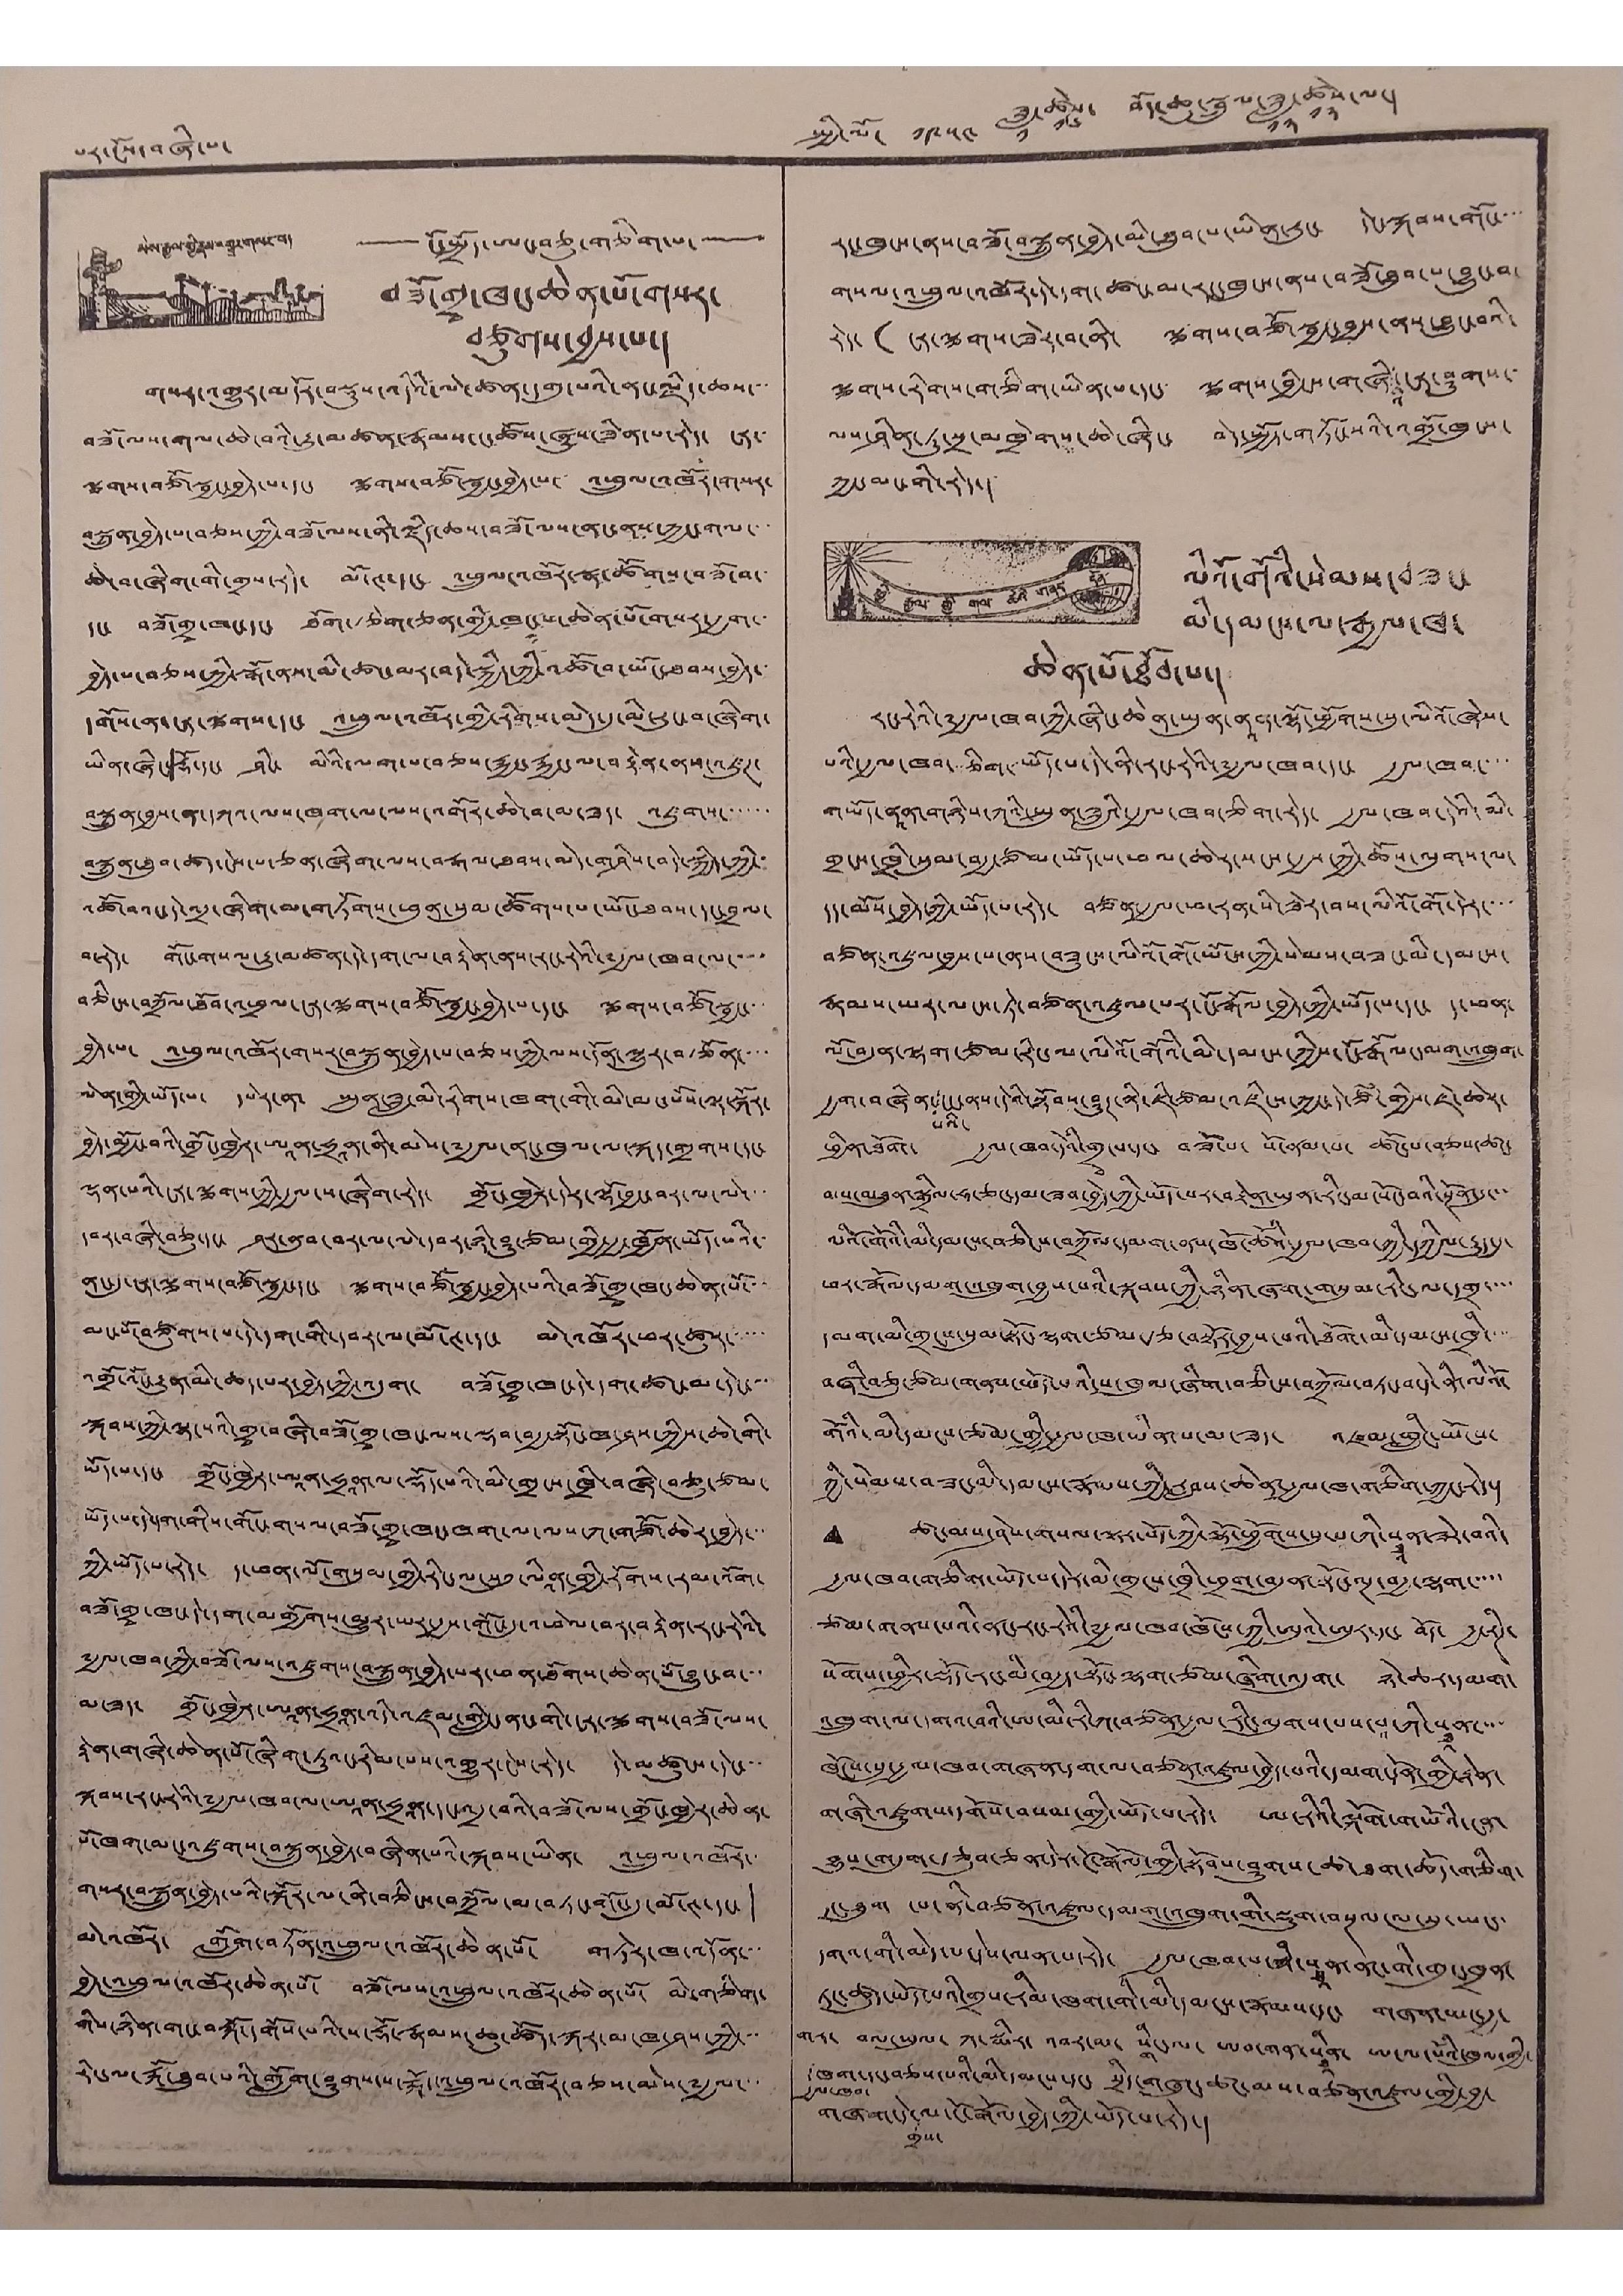པར་ངོས་བཞི་པ་ སྤྱི་ལོ་ ༡༩༥༤ ཟླ་
༡
ཚེས་
༡༢
བོད་ཆུ་སྦྲུལ་ཟླ་
༡༢
ཚེས་
༡༢
ལ།
མེས་རྒྱལ་གྱི་རྣམ་འགྱུར་གསར་པ།
ངོ་སྤྲོད་ཨང་བཅུ་གཅིག་པ་
བཟོ་གྲྭ་ཁང་ཆེན་པོ་གསར་
བཙུགས་བྱས་པ་།
གསར་འགྱུར་མདོར་བསྡུས་འདིའི་ལེ་ཚན་དགུ་པའི་ནང་ལྗིད་ཆས་་་
བཟོ་ལས་གལ་ཆེ་བའི་རྒྱུ་མཚན་རྣམས་ང་ཚོས་ཞུས་ཟིན་པ་རེད་ ངར་་
ལྕགས་བཙོ་སྦྱང་བྱེད་པ་དང་ ལྕགས་བཙོ་སྦྱང་བྱེད་པ་ འཕྲུལ་འཁོར་གསར་
བསྐྲུན་བྱེད་པ་བཅས་ཀྱི་བཟོ་ལས་ནི་ལྗིད་ཆས་བཟོ་ལས་ནང་ནས་ཀྱང་གལ་་་
ཆེ་བ་ཞིག་གི་གྲས་རེད། མོ་ཊ་དང་ འཕྲུལ་འཁོར་སྣ་ཚོགས་བཟོ་བ་་
དང་ བཟོ་གྲྭ་ཁང་དང་ ཐོག་རྩེག་ཅན་གྱི་ཁང་པ་ཆེན་པོ་གསར་རྒྱག་་
བྱེད་པ་བཅས་ཀྱི་སྒོ་ནས་མི་ཚང་མར་བདེ་སྐྱིད་ཀྱི་འཚོ་བ་ཡོང་ཐབས་བྱེད་་
དགོས་ན་ངར་ལྕགས་དང་ འཕྲུལ་འཁོར་གྱི་རིགས་མེད་དུ་མི་རུང་བ་ཞིག་
ཡིན་ཞིངས་རྡོ་དང་ ཤིང་ མིའི་ལག་པ་བཅས་རྐྱང་རྐྱང་ལ་བརྟེན་ནས་འཛུཊ་
བསྐྲུན་བྱས་ན་དཀའ་ལས་ཁག་ལ་ལས་འགོར་ཆེ་བ་མ་ཟད་ འཛུགས་་་་་་
བསྐྲུན་ཐུབ་ཚད་ངེས་པ་ཅན་ཞིག་ལས་བརྒལ་ཐབས་མེད་གཤིས་བདེ་སྐྱིད་ཀྱི་་
འཚོ་བའང་དེ་འདྲ་ཞིག་མ་གཏོགས་ཕུན་སུམ་ཚོགས་པ་ཡོང་ཐབས་དང་བྲལ་
བ་རེད། གོང་གསལ་རྒྱུ་མཚན་དེ་དག་ལ་བརྟེན་ནས་རང་རེའི་༸རྒྱལ་ཁབ་ལ་་་་
བཅིངས་བཀྲོལ་ཐོབ་འཕྲལ་ངར་ལྕགས་བཅོ་སྦྱང་བྱེད་པ་དང་ ལྕགས་བཙོ་སྦྱང་་་
བྱེད་པ་ འཕྲུལ་འཁོར་གསར་བསྐྲུན་བྱེད་པ་བཅས་ཀྱི་ལས་དོན་ལྷུར་བརྩོན་་་་
ལེན་གྱི་ཡོད་པ་ དཔེར་ན་ སྤུན་ཟླ་མི་རིགས་ཁག་གི་མི་མང་པོས་ལྟ་སྐོར་
བྱེད་མྱོང་བའི་གྲོང་ཁྱེར་ཨཱན་ཧྲནཱ་ནི་མེས་༸རྒྱལ་ནང་ཁུལ་ལ་སྐད་གྲགས་དང་
ལྡན་པའི་ངར་ལྕགས་ཀྱི་རྒྱལ་ས་ཞིག་རེད་ གྲོང་ཁྱེར་དེར་ལྷོ་བྱང་བར་ལ་ལེ་་་
དབར་བཞི་བཅུ་དང་ ཤར་ནུབ་བར་ལ་ལེ་དབར་ཉི་ཤུ་ཙམ་གྱི་རྒྱ་ཁྱོན་ཡོད་པའི་་
ནང་དུ་ངར་ལྕགས་བཙོ་སྦྱང་དང་ ལྕགས་བཙོ་སྦྱང་བྱེད་པའི་བཟོ་གྲྭ་ཁང་ཆེན་པོ་་་
མང་པོ་བཙུགས་པ་དེ་དག་གི་དབར་ལ་མོ་ཊ་དང་ མེ་འཁོར་ཕར་ཚུར་་་་་
འགྲོ་འོང་རྒྱུན་མི་ཆད་པར་བྱེད་ཀྱི་འདུག་ བཟོ་གྲྭ་ཁང་དེ་དག་ཚང་མ་དེང་་་
སྐབས་ཀྱི་ལྷ་སའི་གྲྭ་བཞི་བཟོ་གྲྭ་ཁང་ལས་ལྡབ་བརྒྱ་སྟོང་ཁ་ཤས་ཀྱིས་ཆེ་གི་
ཡོད་པ་དང་ གྲོང་ཁྱེར་ཨཱན་ཧྲནཱ་ལ་སྡོད་པའི་མི་གྲངས་ཁྲི་བཞི་བཅུ་ཙམ་
ཡོད་པ་དེ་དག་གིས་གོང་གསལ་བཟོ་གྲྭ་ཁང་ཁག་ལ་ལས་ཀ་གཙོ་ཆེར་བྱེད་་་
ཀྱི་ཡོད་པ་རེད། ད་ཕན་ལོ་གསུམ་གྱི་རིང་ལ་སུའུ་ལཱིན་གྱི་རོགས་རམ་འོག་
བཟོ་གྲྭ་ཁང་དེ་དག་མགྱོགས་མྱུར་ཡར་རྒྱས་གོང་དུ་འཕེལ་བར་བརྟེན་རང་རེའི་
༸རྒྱལ་ཁབ་ཀྱི་བཟོ་ལས་འཛུགས་བསྐྲུན་བྱེད་པར་ཕན་ཐོགས་ཆེན་པོ་བྱཽང་བ་་་
མ་ཟད་ གྲོང་ཁྱེར་ཨཱན་ཧྲནཱ་འདི་འཛམ་གླིང་ནང་གི་ངར་ལྕགས་བཟོ་ལས་
རྟེན་གཞི་ཆེན་པོ་ཞིག་ཏུའང་རིམ་པས་འགྱུར་ངེས་རེད། དེ་མཚུངས་དེང་་་
སྐབས་རང་རེའི་༸རྒྱལ་ཁབ་ལ་ཨཱན་ཧྲནཱ་དང་འདྲ་བའི་བཟོ་ལས་གྲོང་ཁྱེར་ཆེན་
པོ་ཁག་མང་འཛུགས་བསྐྲུན་བྱེད་བཞིན་པའི་སྐབས་ཡིན་ འཕྲུལ་འཁོར་་
གསར་བསྐྲུན་བྱེད་པའི་སྐོར་ལ་ནི་བཅིངས་བཀྲོལ་མ་བཏང་གོང་དུ་མོ་ཊ་དང་
མེ་འཁོར་ གློག་བཏོན་འཕྲུལ་འཁོར་ཆེན་པོ་ གཏེར་ཁ་འདོན་་་
བྱེད་འཕྲུལ་འཁོར་ཆེན་པོ་ བཟོ་ལས་འཕྲུལ་འཁོར་ཆེན་པོ་ མི་གཅིག་
གིས་ཉིན་གང་བསྐོ་དགོས་པའི་ས་རྡོ་རྣམས་ཆུ་ཚོད་སྐར་མ་ཁ་ཤས་ཀྱི་་་
རིང་ལ་རྐོ་ཐུབ་པའི་གློག་ཤུགས་ས་རྐོ་འཕྲུལ་འཁོར་བཅས་མེས་༸རྒྱལ་་་
རང་ཁུངས་ནས་བཟོ་བསྐྲུན་བྱེད་མི་ཐུབ་པ་ཡིན་རུང་ དེང་སྐབས་གོང་་་་
གསལ་འཕྲུལ་འཁོར་དེ་དག་ཚང་མ་རང་ཁུངས་ནས་བཟོ་ཐུབ་པ་བྱུང་བ་
རེད་ ( ངར་ལྕགས་ཟེར་བ་ནི་ ལྕགས་བཙོ་སྦྱང་བྱས་ནས་བྱུང་བའི་
ལྕགས་རིགས་གཅིག་ཡིན་པ་དང་ ལྕགས་བྱིངས་གཞི
འི
་ངར་ཤུགས་་
ལས་ཤིན་ཏུ་སྲ་མཁྲེགས་ཆེ་ཞིང་ བདེ་སྤྱོད་གཏོང་སའི་འགྲོ་ཁུངས་
ཀྱང་མང་གི་རེད་།
ཕྱི་རྒྱལ་གྱི་གལ་ཆེའི་གནད་དོན་
ལིའོ་གོའི་སེམས་བཟང་
མི་དམངས་ལ་རྒྱལ་ཁབ་
ཆེན་པོ་ཐོབ་པ་།
རང་རེའི་༸རྒྱལ་ཁབ་ཀྱི་ཞིང་ཆེན་ཡུན་ནཱན་ལྷོ་ཕྱོགསསུ་མིའོ་ཞེས་
པའི་རྒྱལ་ཁབ་་་ཅིག་་ཡོད་པ་དེ་ནི་རང་རེའི་༸རྒྱལ་ཁབ་དང་ རྒྱལ་ཁབ་་་་
གཡོད་ནནཱ་གཉིས་ཀའི་སྤུན་ཟླའི་རྒྱལ་ཁབ་ཅིག་རེད་ རྒྱལ་ཁབ་དེའི་མི་
གྲངས་ཁྲི་སུམ་བརྒྱ་ཙམ་ཡོད་པ་ཕལ་ཆེར་སངས་རྒྱས་ཀྱི་ཆོས་ལུགས་ལ་
དད་མོས་བྱེད་ཀྱི་ཡོད་པ་རེད་ བཙན་རྒྱལ་ཕ་རན་སི་ཟེར་བས་ལིའོ་གོ་དེར་་་་
བཙན་འཛུལ་བྱས་པ་ནས་བཟུངས་ལིའོ་གོ་ཡོངས་ཀྱི་སེམས་བཟང་མི་དམངས་
རྣམས་ཡར་ལངས་ཏེ་བཙན་འཛུལ་པར་ངོ་རྒོལ་བྱེད་ཀྱི་ཡོད་པ་དང་ ད་ཕན་
ལོ་བདུན་ལྷག་ཙམ་རིང་ལ་ལིའོ་གོའི་མི་དམངས་ཀྱིས་ངོ་རྒོལ་དམག་འཁྲུག་
རྒྱག་བཞིན་
པའི་
ངང་ནས་དེའི་སྟོབས་ཤུཊ་ནི་ཇི་ཙམ་འཛིངས་ཀྱང་དེ་ཙཾ་གྱིས་ཇེ་ཆེར་
ཕྱིན་ཐོག་ རྒྱལ་ཁབ་དེའི་གྲྭ་པ་དང་ བཟོ་པ་ སོ་ནམ་པ་ ཚོང་པ་བཅས་ཚང་
མས་མཐུན་སྒྲིལ་ཧ་ཅང་དམ་ཟབ་བྱེད་ཀྱི་ཡོད་པར་བརྟེན་ཡུན་རིང་མ་སོང་བའི་སྔོན་དུ་་་
ལིའོ་གོའི་མི་དམངས་བཅིངས་བཀྲོལ་དམག་ནས་ཁོ་ཚོའི་རྒྱལ་ཁབ་ཀྱི་དཀྱིལ་རྒྱུད་དུ་
ཕར་རྒོལ་དམག་འཕྲུག་བྱས་པའི་སྐབས་ཀྱི་ཉིན་ཞག་གསུམ་རིང་ལ་དགྲ་་་་
དམག་མི་གྲངས་སུམ་སྟོང་ལྷག་ཙམ་རྩ་བསྟོར་བྱས་པའི་ཐོག་མི་དམངས་ཁྲི་་་་
བཞི་བཅུ་ཙམ་གནས་ཕོད་པའི་ས་ཁུལ་ཞིག་བཅིངས་བཀྲོལ་བཏང་བ་དེ་ནི་ལིའོ་
གོའི་མི་དམངས་ཙམ་གྱི་རྒྱལ་ཁབ་ཡིན་པ་མ་ཟད་ འཛམ་གླིང་ཡོངས་
ཀྱི་སེམས་བཟང་མི་དམངས་རྣམས་ཀྱི་རླབས་ཆེན་རྒྱལ་ཁབ་གཅིག་ཀྱང་རེད།
ཚང་མས་ཤེས་གསལ་ལྟར་བོད་ཀྱི་ལྷོ་ཕྱོགས་སུ་པ་ཀི་སྠཱན་ཟེར་བའི་
རྒྱལ་ཁབ་གཅིག་ཡོད་པ་དེར་མི་གྲངས་ཁྲི་ཕྲག་བདུན་སྟོང་ལྔ་བརྒྱ་ལྷག་་་་་
ཙམ་གནས་པའི་ནང་རང་རེའི་༸རྒྱལ་ཁབ་ཁོངས་ཀྱི་ཨུའེ་ཨུར་དང་ བོད་ རྒྱ་རིཊ་
སོགས་ཕྱིར་སྡོད་རང་མི་བརྒྱད་སྟོང་ལྷག་ཙམ་ཞིག་འདུག་ ཉེ་ཆར་དམག་
འཁྲུག་ལ་དགའ་བའི་ཨ་མི་རི་ཀ་བཙན་རྒྱལ་རིང་ལུགས་པས་པ་ཀི་སྠཱན་་་་
ཁོངས་སུ་རྒྱལ་ཁབ་གཞན་དག་ལ་བཙན་འཛུལ་བྱེད་པའི་དམག་དོན་གྱི་རྟེན་
གཞི་འཛུགས་དགོས་བསམ་གྱི་ཡོད་པ་རེད་ ཨ་རིའི་ལྐོག་གཡོའི་ངན་
བྱུས་གདུག་རྩུབ་ཅན་དེར་ངོ་རྒོལ་གྱི་སྟོབས་ཤུགས་ཚ་ཐག་ཆོད་གཅིག་
དང་ཐུག་ ངས་ནི་བཙན་འཛུལ་དམག་འཁྲུག་གི་སྡུག་བསྔལ་ལ་སུ་ཡང་
དགའ་གི་མེད་པ་དེས་ལན་པ་རེད་ རྒྱལ་ཁབ་པ་ཀི་སྠཱན་ནང་གི་གུང་ཁྲན་
ཏང་ཚུད་ཡོད་པའི་གྲས་རིམ་ཁག་གི་མི་དམངས་རྣམས་དང་ གཞན་ཡང་རྒྱ་
གར་ བལཡུལ་ ཀ་སྨིར་ འབར་མ་ སྒིང་ལ་ ཨབ་གན་སྠཱིན་ ཨ་ལ་པོའི་ཁུལ་གྱི་
རྒྱལ་ཁབ་
ཁག་དང་བཅས་པའི་མི་དམངས་དང་ སྲིད་གཞུང་ཚང་མས་བཙན་འཛུལ་གྱི་བྱ་
གཞག་དེ་
གྲས་
ལ་ངོ་རྒོལ་བྱེད་ཀྱི་ཡོད་པ་རེད།
